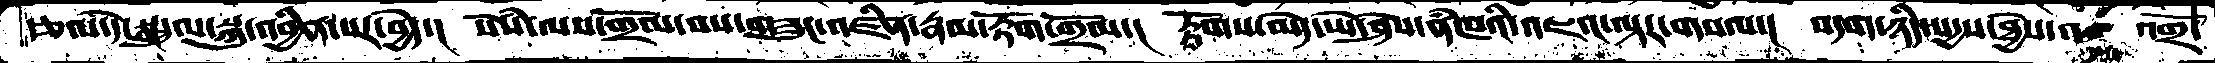རྩལ་དེ་སྤྲུལ་སྐུ་འབྱིན་པར་བྱེད་།  སེཾས་ལས་གྲོལ་བས་གཟུང་འཛིན་རྣམ་རྟོག་གྲོལ་།  རྟོགས་མེད་ཡེ་ཤེས་ནཾཁའི་འཇའ་ལྟར་གསལ་།  བདག་ཉིད་སདྱས་ཐྱེས་འ  འགྲོ་
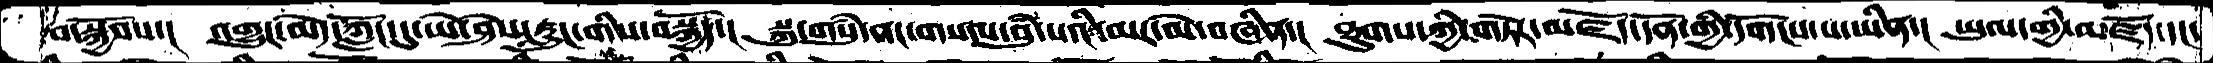བ་སྐྱོབས་།   འགྱུར་མེད་ཀློང་དུ་ཡེ་ཤེས་རླུང་གིས་བསྐྱོད་།  སྐུ་གསུཾ་ནང་གསལ་བུཾ་པའི་མར་མེ་བཞིན་།  ཐུགས་ཀྱི་གཏེར་མཛོད་དོན་གྱི་དགོངས་པ་ཡིན་།  ཡུལ་གྱི་མཛོད་དང་
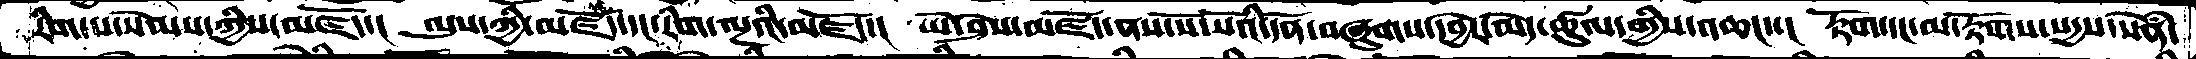རིག་པ་སེམས་ཀྱིས་མཛོད་།   ལུས་ཀྱི་མཛོད་དང་རིག་ལྔའི་མཛོད་།  ཡེ་ཤེས་མཛོད་ནས་སོ་སོའི་དོན་བཞུགས་དབྱེར་མེད་ཚུལ་གྱིས་འཆང་་།  རྟོག་དང་མ་རྟོགས་སདྱས་སེཾན་
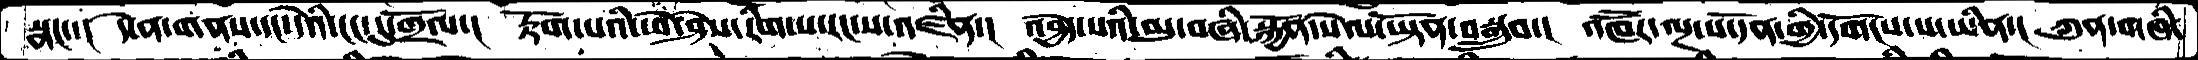སྣང་་།   དེ་ན་གནས་དང་དེའི་ངང་དུ་གྲོལ་།  རྟོག་པའི་ཡེ་ཤེས་རིག་པ་རང་ས་འཛིན་།  འབྱེད་པའི་མུ་བཞི་སྐྱོན་སེལ་ཡྟོན་བསྒྲུབ་།  འཁཽར་ལྔ་པ་དོན་གྱི་དགོངས་པ་ཡིན་།  ཀུན་གཞི་
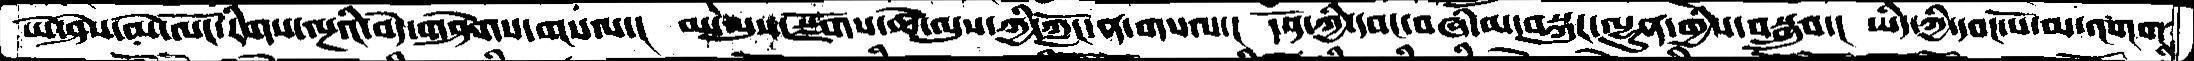ཡེ་ཤེས་མེ་ལོང་རིགས་ལྔའི་བདེ་གཤེགས་གསལ་། མ་ལུས་སྫོགས་ཚེ་ལུས་ཀྱི་ཀློང་ན་གསལ་།  དོན་ཀྱི་དབང་བཞི་མ་བསྐུར་ལྷུན་གྱིས་བསྒྲུབ་། ཡིད་ཀྱི་དབང་པོ་མ་འགགས
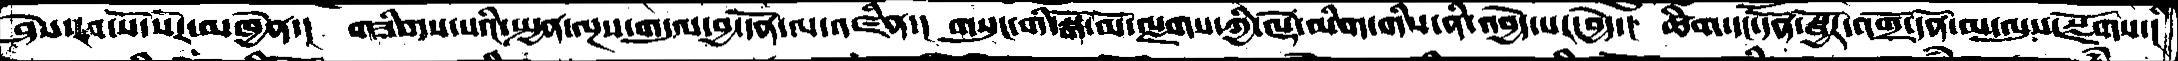ཤེས་རབ་སོ་སོར་མཁྱེན་།  གཟིགས་པའི་སྤྱན་ལྔས་གདུལ་བྱ་དོན་ལ་འཛིན་།  གསུང་གི་སྒོ་མོ་ལྗགས་ཀྱི་ལྡེ་མིག་གིས་ནི་འབྱེད་པར་བྱེད་།  ཚིག་དང་དོན་སྦྱོར་འགྲོ་དོན་མ་ལུས་སྫོགས་།
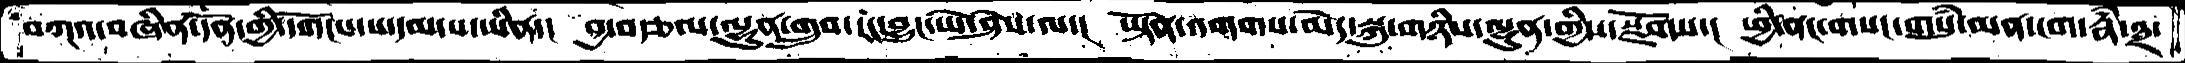བཀའ་བཞིན་དོན་གྱི་དགོངས་པ་དམ་པ་ཡིན་།  བྱ་རྩལ་ལྷུན་གྲུབ་རང་བྱུང་ཡེ་ཤེས་ལ་།  ཡྟོན་འགགས་མེད་སྐུ་གཉིས་ལྷུན་གྱིས་སྫོགས་།  ཕྱི་ནང་གསང་གསུཾ་མན་ངག་རྣཾ་༣་
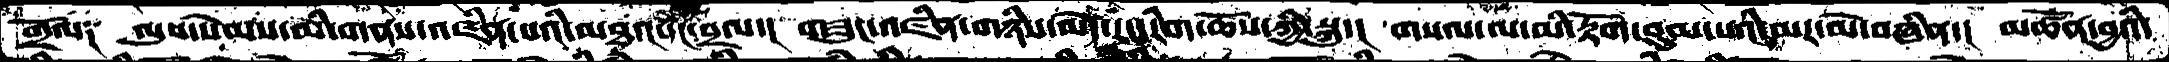གྲོལ༑   ལུས་སེམས་མི་གནས་འཛིན་པའི་མཐའ་དང་བྲལ་།  གཟུང་འཛིན་གཉིས་མེད་རང་རིག་ཆོས་ཀྱི་སྐུ་།  གསལ་ལ་མི་རྟོག་བུམ་པའི་མར་མེ་བཞིན་།  མཚོན་བྱའི་
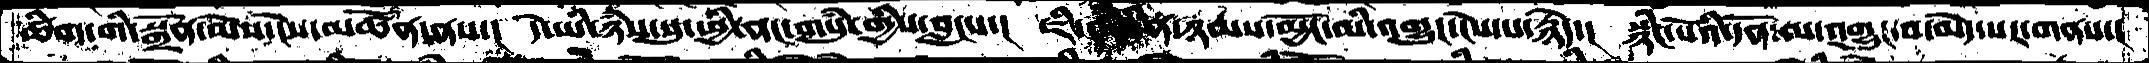ཚིག་གི་སྒྲོན་མེས་ངེས་མཚོན་ནས་།  དེ་ཡི་ཉཾས་སུ་ཕྱི་ནང་གསུཾ་གྱིས་བླངས་།  ཇི་བཞིན་ཉམས་མྱོང་མི་འགྱུར་ངེས་པ་རྙེད་།  སྙིང་པོའི་དོན་ལ་འགྱུར་བ་མེད་པར་གནས་།
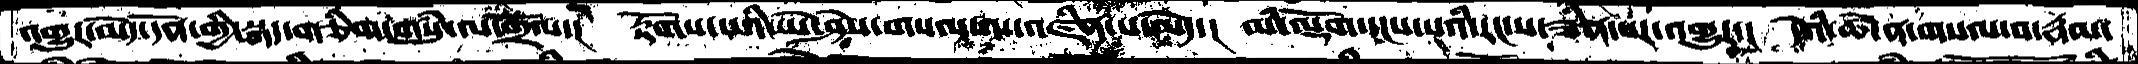འགྱུར་མེད་དོན་གྱི་སྐད་གཅིག་གསུཾ་ལ་གྲོལ་།  རྟོགས་པའི་ཡེ་ཤེས་གསལ་ལ་འཛིན་པ་མེད་།  མི་ལྡོག་དངས་པའི་རང་ས་ཟིན་པར་འགྱུར་།  དེའི་ཚེ་ན་གསལ་བ་རྣམ་
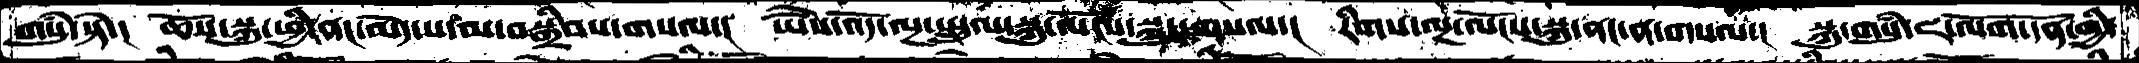གསུཾ་སྟེ་།  ཆོས་སྐུ་ཕྱི་ནང་མེད་པ་མ་བསྒྲིབས་གསལ་།  ཡཻཻས་འོད་ལྔ་སྤྲུལ་སྐུ་ལོངས་སྐུ་གསལ་།  རིགས་ལྔ་ལོངས་སྐུ་ནང་ན་གསལ་།  སྐུ་གསུཾ་ཇ་ལོག་དོན་གྱི་
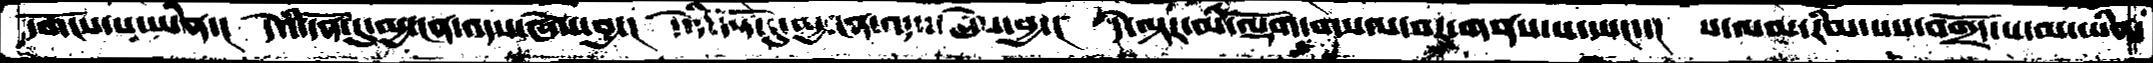དགོངས་པ་ཡིན་།  དེའི་དོན་དུ་མྱ་ངན་འདས་ཞེས་བྱ་།  དེའི་དོན་དུ་མྱ་ངན་འདས་ཞེས་བྱ་།  དེ་ལྟར་མི་ལྡོག་གསལ་བར་གནས་པ་ཡང་་།  ས་ལམ་རིམ་པས་བགྲོད་པ་མ་ཡིན་
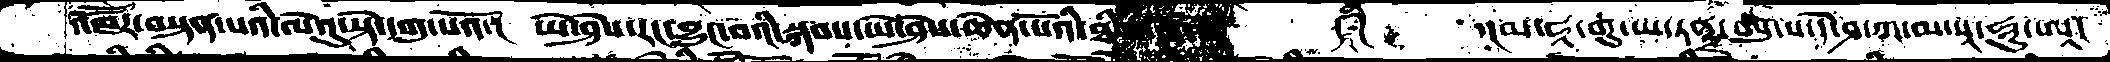འཁཽར་བསྟན་པའི་ལེའུ་སྟེ་དགུ་པའོ་། ཡེ་ཤེས་རང་བྱུང་བའི་སྐབས་ཡེ་ཤེས་ཆེན་པོའི་ཐིག་ལེ་གོ་།  ༼༈༽   ་།མ་ཧཱ་གུ་ཡ་ཏནྟྲ་ཨུ་པ་དེ་ཤ་ཀ་མ་སཱ་ཧཱུ་ཨཱ།
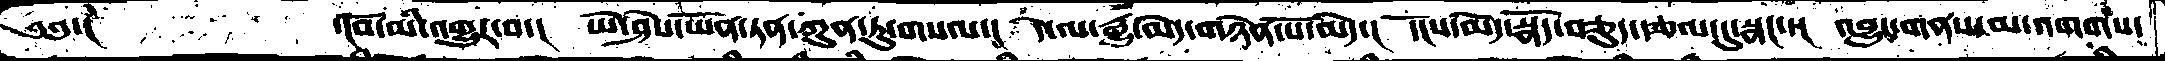༄༅་།       ་།བོ་མི་འགྱུར་བ་།  ཡེ་ཤེས་ཡོན་ཏན་ཀུན་ཏུ་གསལ་།  དེ་ལ་རྒྱུ་མེད་གཉེན་པོ་མེད་།  དངོས་མེད་སྣོད་བཅུད་རྩལ་དུ་སྣང་་།  འབྱུང་གནས་མ་འགགས་
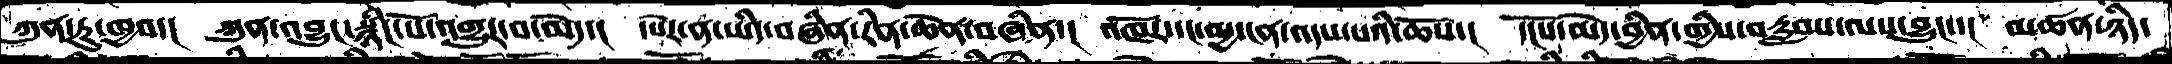ཀུན་ཏུ་ཁྱབ་།  ཀུན་འབྱུང་སྙིང་པོ་འགྱུར་བ་མེད་།  དཔེར་ན་ཡིད་བཞིན་རིན་ཆེན་བཞིན་།  འཁོར་དང་མྱ་ངན་འདས་པའི་ཆོས་།  དངོས་མེད་བྱིན་གྱིས་བརླབས་ལས་བྱུང་་།  མཚན་ཉིད་
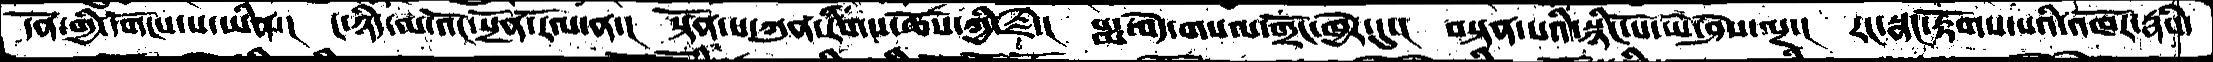དོན་གྱི་དགོངས་པ་ཡིན་།  ང་ཉིད་མ་འོང་སྔོན་རོལ་ན་།  སྟོན་པ་ཀུན་རིགས་ཆོས་ཀྱི་རྗེ་།  པདྨ་འོད་གསལ་གྲོང་ཁྱེར་དུ་།  བསྟན་པའི་སྙིང་པོ་ཡེ་ཤེས་ལྔ་།  རང་སྣང་རྟོགས་པའི་འཁོར་རྣཾས་
